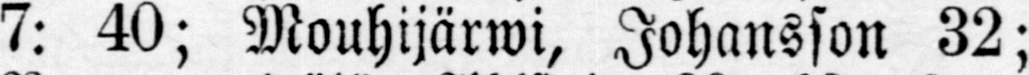7: 40; Mouhijärwi, Johansson 32;
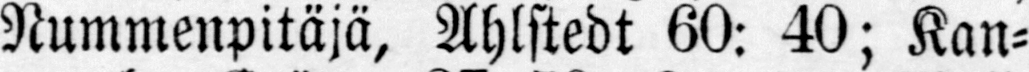Nummenpitäjä, Ahlstedt 60: 40; Kan-
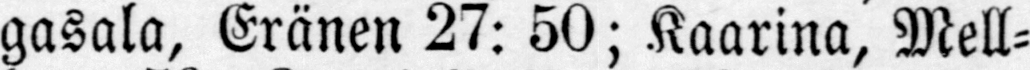gasala, Eränen 27: 50; Kaarina, Mell-
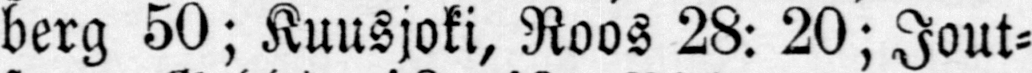berg 50; Kuusjoki, Roos 28: 20; Jout-
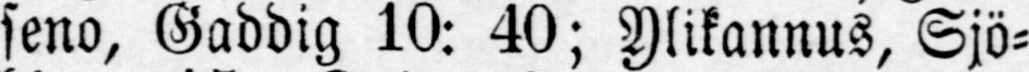seno, Gaddig 10: 40; Ylikannus, Sjö-
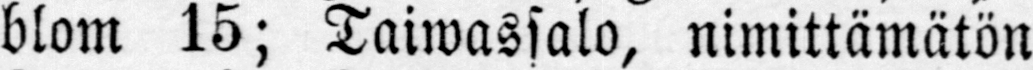blom 15; Taiwassalo, nimittämätön
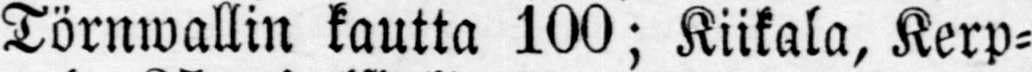Törnwallin kautta 100; Kiikala, Kerp-
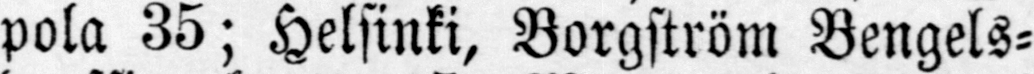pola 35; Helsinki, Borgström Bengels-
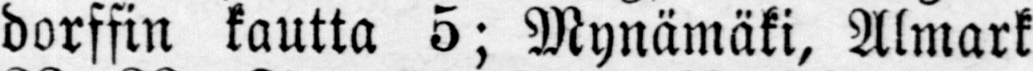dorffin kautta 5; Mynämäki, Almark
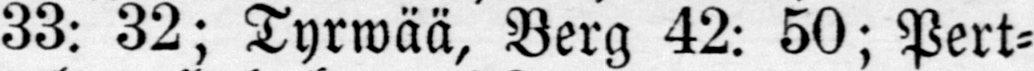33: 32; Tyrwää, Berg 42: 50; Pert-
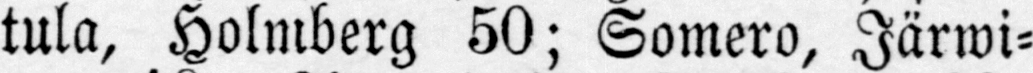tula, Holmberg 50; Somero, Järwi-
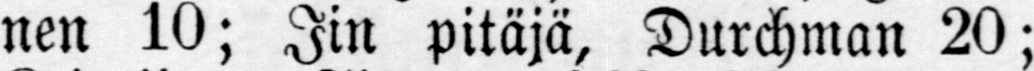nen 10; Iin pitäjä, Durchman 20;
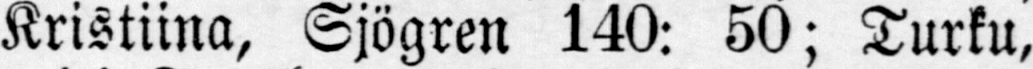Kristiina, Sjögren 140: 50; Turku,
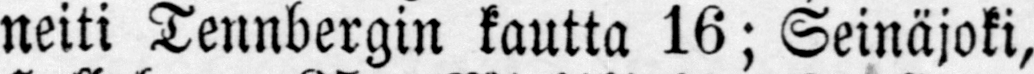neiti Tennbergin kautta 16; Seinäjoki,
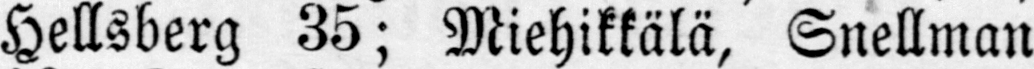Hellsberg 35; Miehikkälä, Snellman
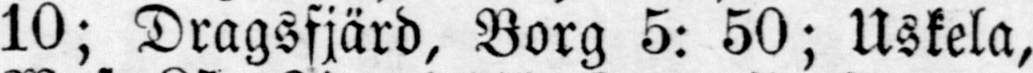10; Dragsfjärd, Borg 5: 50; Uskela,
